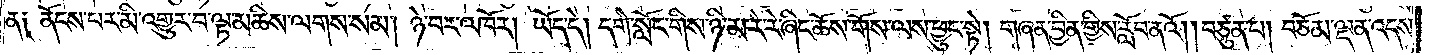ན༑ ནོངས་པར་མི་འགྱུར་བ་ལྟ་མཆིས་ལགས་སམ། ཉེ་བར་འཁོར། ཡོད་དེ། དགེ་སློང་གིས་ཉི་མ་རེ་རེ་ཞིང་ཆོས་གོས་ལས་ཕྱུང་སྟེ། གཞན་བྱིན་གྱིས་རློབ་ནའོ། །བཙུན་པ། བཅོམ་ལྡན་འདས་
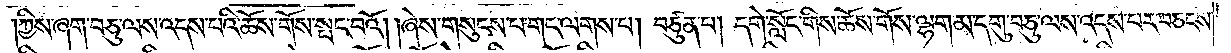།ཀྱིས་ཞག་བཅུ་ལས་འདས་པའི་ཆོས་གོས་སྤང་བའོ། །ཞེས་གསུངས་པ་གང་ལགས་པ། བཙུན་པ། དགེ་སློང་གིས་ཆོས་གོས་ལྷག་མ་དགུ་བཅུ་ལས་འདས་པར་བཅངས་
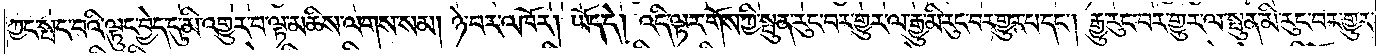ཀྱང་སྤང་བའི་ལྟུང་བྱེད་དུ་མི་འགྱུར་བ་ལྟ་མཆིས་ལགས་སམ། ཉེ་བར་འཁོར། ཡོད་དེ། འདི་ལྟར་གོས་ཀྱི་སྤུན་རུང་བར་གྱུར་ལ་རྒྱུ་མི་རུང་བར་གྱུར་པ་དང༌། རྒྱུ་རུང་བར་གྱུར་ལ་སྤུན་མི་རུང་བར་གྱུར་
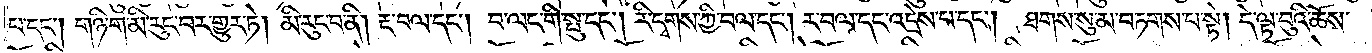པ་དང༌། གཉི་ག་མི་རུང་བར་གྱུར་ཏེ། མི་རུང་བ་ནི། རྔ་བལ་དང༌། བ་ལང་གི་སྤུ་དང༌། རི་དྭགས་ཀྱི་བལ་དང༌། ར་བལ་དང་འདྲེས་པ་དང༌། ཐགས་སུ་མ་བཏགས་པ་སྟེ། དེ་ལྟ་བུའི་ཆོས་
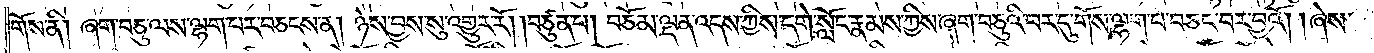གོས་ནི། ཞག་བཅུ་ལས་ལྷག་པར་བཅངས་ན། ཉེས་བྱས་སུ་འགྱུར་རོ། །བཙུན་པ། བཅོམ་ལྡན་འདས་ཀྱིས་དགེ་སློང་རྣམས་ཀྱིས་ཞག་བཅུའི་བར་དུ་གོས་ལྷག་པ་བཅང་བར་བྱའོ། །ཞེས་
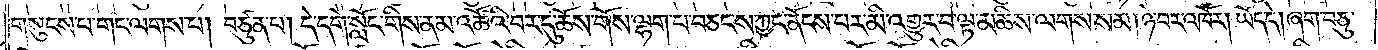གསུངས་པ་གང་ལགས་པ། བཙུན་པ། དེ་དགེ་སློང་གིས་ནམ་འཚོའི་བར་དུ་ཆོས་གོས་ལྷག་པ་བཅངས་ཀྱང་ནོངས་པར་མི་འགྱུར་བ་ལྟ་མཆིས་ལགས་སམ། ཉེ་བར་འཁོར། ཡོད་དེ། ཞག་བཅུ་
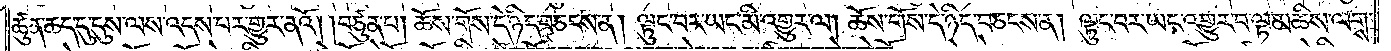ཚུན་ཆད་དུ་དུས་ལས་འདས་པར་གྱུར་ནའོ། །བཙུན་པ། ཆོས་གོས་དེ་ཉིད་བཅངས་ན། ལྟུང་བར་ཡང་མི་འགྱུར་ལ། ཆོས་གོས་དེ་ཉིད་བཅངས་ན། ལྟུང་བར་ཡང་འགྱུར་བ་ལྟ་མཆིས་ལགས་
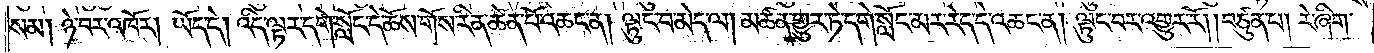སམ། ཉེ་བར་འཁོར། ཡོད་དེ། འདི་ལྟར་དགེ་སློང་དེ་ཆོས་གོས་རིན་ཆེན་པོ་འཆང་ན། ལྟུང་བ་མེད་ལ། མཚན་གྱུར་ཏེ་དགེ་སློང་མར་རེད་དེ་འཆང་ན། ལྟུང་བར་འགྱུར་རོ། །བཙུན་པ། རེ་ཞིག་
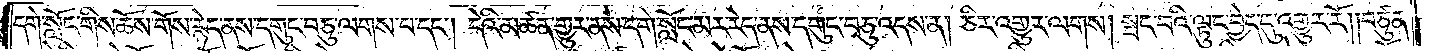དགེ་སློང་གིས་ཆོས་གོས་རྙེད་ནས་དགུང་བཅུ་ལགས་པ་དང༌། དེའི་མཚན་གྱུར་ནས་དགེ་སློང་མར་རེད་ནས་དགུང་བཅུ་འདས་ན། ཅིར་འགྱུར་ལགས། སྤང་བའི་ལྟུང་བྱེད་དུ་འགྱུར་རོ། །བཙུན་
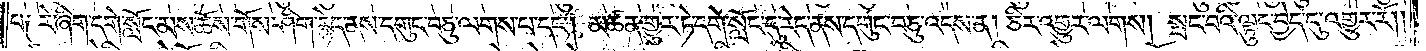པ༑ རེ་ཞིག་དགེ་སློང་མས་ཆོས་གོས་ཤིག་རྙེད་ནས་དགུང་བཅུ་ལགས་པ་དང༌། མཚན་གྱུར་ཏེ་དགེ་སློང་དུ་རེད་ནས་དགུང་བཅུ་འདས་ན། ཅིར་འགྱུར་ལགས། སྤང་བའི་ལྟུང་བྱེད་དུ་འགྱུར་རོ༎
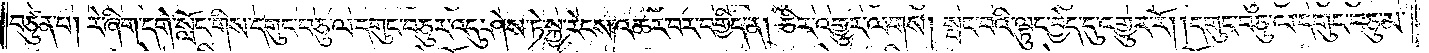བཙུན་པ། རེ་ཞིག་དགེ་སློང་གིས་དགུང་བཅུ་ལ་དགུང་བཅུར་འདུ་ཤེས་ཏེ་སྐྱ་རེངས་འཆར་བར་བགྱིད་ན། ཅིར་འགྱུར་ལགས། སྤང་བའི་ལྟུང་བྱེད་དུ་འགྱུར་རོ། །དགུང་བཅུ་ལ་དགུང་བཅུ་མ་
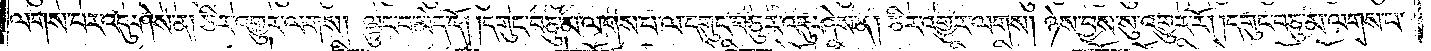ལགས་པར་འདུ་ཤེས་ན། ཅིར་འགྱུར་ལགས། ལྟུང་བ་མེད་དོ། །དགུང་བཅུ་མ་ལགས་པ་ལ་དགུང་བཅུར་འདུ་ཤེས་ན། ཅིར་འགྱུར་ལགས། ཉེས་བྱས་སུ་འགྱུར་རོ། །དགུང་བཅུ་མ་ལགས་པ་
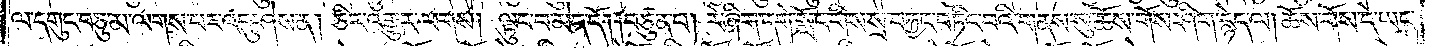ལ་དགུང་བཅུ་མ་ལགས་པར་འདུ་ཤེས་ན། ཅིར་འགྱུར་ལགས། ལྟུང་བ་མེད་དོ། །བཙུན་པ། རེ་ཞིག་དགེ་སློང་གིས་སྲ་བརྐྱང་བཏིང་བའི་གནས་སུ་ཆོས་གོས་ཤིག་རྙེད་ལ། ཆོས་གོས་དེ་ཡང་
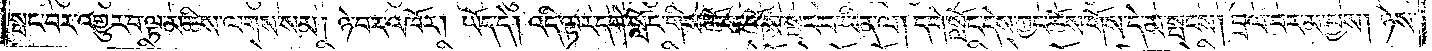སྤང་བར་འགྱུར་བ་ལྟ་མཆིས་ལགས་སམ། ཉེ་བར་འཁོར། ཡོད་དེ། འདི་ལྟར་དགེ་སློང་གིས་ཆོས་གོས་སྤང་བ་ཡིན་ལ། དགེ་སློང་དེས་ཀྱང་ཆོས་གོས་དེ་མ་སྤངས། བྲལ་བར་མ་བྱས། ཉེས་
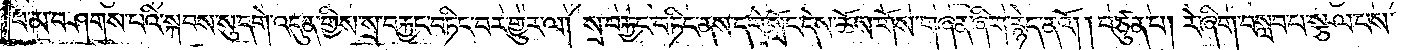པ་མ་བཤགས་པའི་སྐབས་སུ་དགེ་འདུན་གྱིས་སྲ་བརྐྱང་བཏིང་བར་གྱུར་ལ། སྲ་བརྐྱང་བཏིང་ནས་དགེ་སློང་དེས་ཆོས་གོས་གཞན་ཞིག་རྙེད་ནའོ། །བཙུན་པ། རེ་ཞིག་བསླབ་པ་སྩལ་པས་
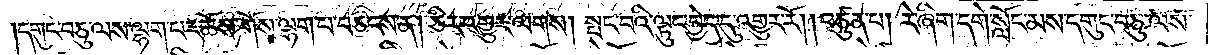དགུང་བཅུ་ལས་ལྷག་པར་ཆོས་གོས་ལྷག་པ་བཅངས་ན། ཅིར་འགྱུར་ལགས། སྤང་བའི་ལྟུང་བྱེད་དུ་འགྱུར་རོ། །བཙུན་པ། རེ་ཞིག་དགེ་སློང་མས་དགུང་བཅུ་ལས་
